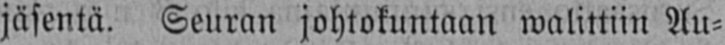jäsentä. Seuran johtokuntaan walittiin Au-
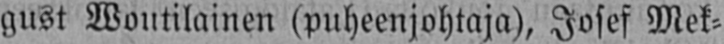gust Woutilainen (puheenjohtaja), Josef Mek-
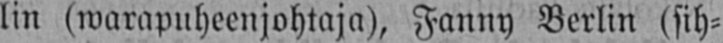lin (warapuheenjohtaja), Fanny Berlin (sih-
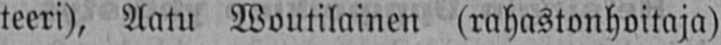teeri), Aatu Woutilainen (rahastonhoitaja)
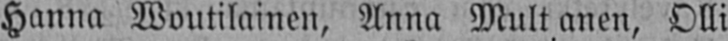Hanna Woutilainen, Anna Mult anen, Olli
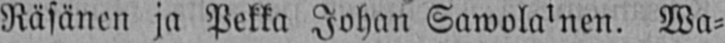Räsänen ja Pekka Johan Sawolainen. Wa-
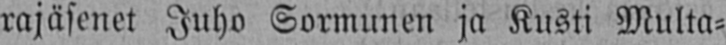rajäsenet Juho Sormunen ja Kusti Multa-
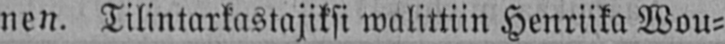nen. Tilintarkastajiksi walittiin Henriika Wou-
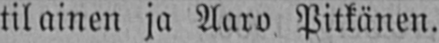tilainen ja Aaro Pitkänen.
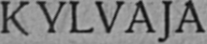KVLVÄJÄ.
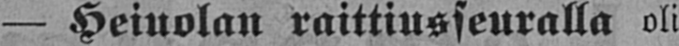— Heiuolan raittiusseuralla oli
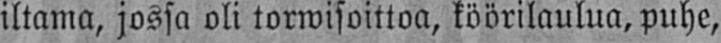iltama, jossa oli torwisoittoa, köörilaulua, puhe,
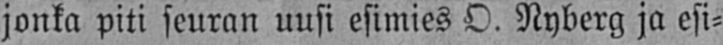jonka piti seuran uusi esimies O. Nyberg ja esi-
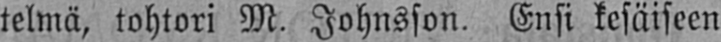telmä, tohtori M. Johnsson. Ensi kesäiseen
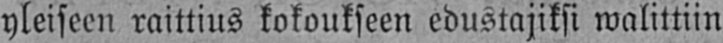yleiseen raittius kokoukseen edustajiksi walittiin
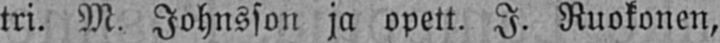tri. M. Johnsson ja opett. J. Ruokonen,
